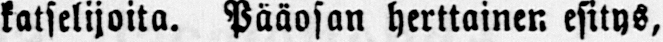katselijoita. Pääosan herttainen esitys,
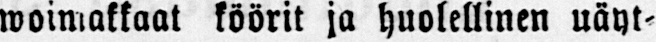woimakkaat köörit ja huolellinen näyt-
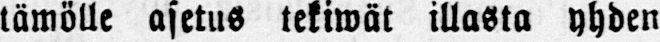tämölle asetus tekiwät illasta yhden
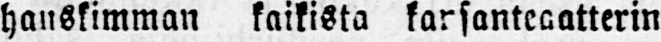hauskimman kaikista karsanteaatterin
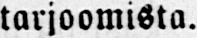tarjoamista.
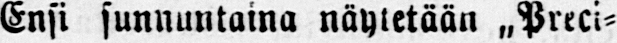Ensi sunnuntaina näytetään „Preci-
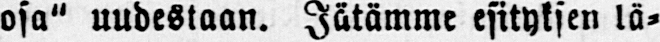osa" uudestaan. Jätämme esityksen lä-
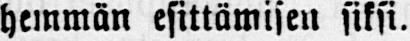hemmän esittämisen siksi.
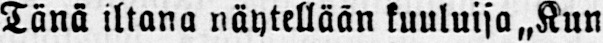Tänä iltana näytellään kuuluisa „Kun-
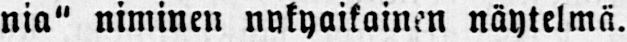nia" niminen nykyaikainen näytelmä.
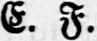E. F.
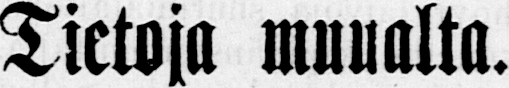Tietoja muualta.
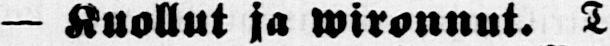— Kuollut ja wironnut. T.
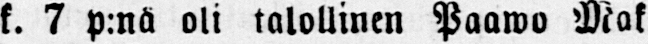k. 7 p:nä oli talollinen Paawo Mak-
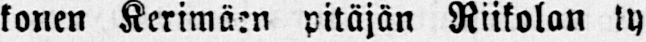konen Kerimäen pitäjän Riikolan ky-
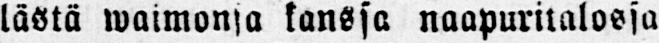lästä waimonsa kanssa naapuritalossa
